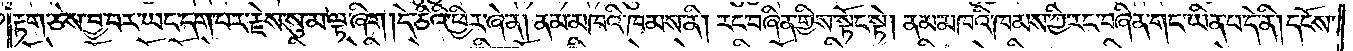རྟག་ཅེས་བྱ་བར་ཡང་དག་པར་རྗེས་སུ་མ་ལྟ་ཞིག །དེ་ཅིའི་ཕྱིར་ཞེ་ན། ནམ་མཁའི་ཁམས་ནི། རང་བཞིན་གྱིས་སྟོང་སྟེ། ནམ་མཁའི་ཁམས་ཀྱི་རང་བཞིན་གང་ཡིན་པ་དེ་ནི། དངོས་
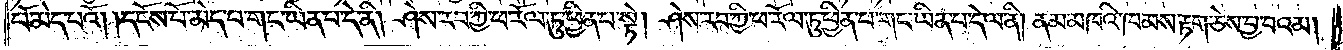པོ་མེད་པའོ། །དངོས་པོ་མེད་པ་གང་ཡིན་པ་དེ་ནི། ཤེས་རབ་ཀྱི་ཕ་རོལ་ཏུ་ཕྱིན་པ་སྟེ། ཤེས་རབ་ཀྱི་ཕ་རོལ་ཏུ་ཕྱིན་པ་གང་ཡིན་པ་དེ་ལ་ནི། ནམ་མཁའི་ཁམས་རྟག་ཅེས་བྱ་བའམ།
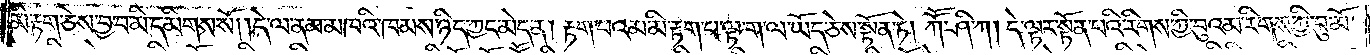མི་རྟག་ཅེས་བྱ་བ་མི་དམིགས་སོ། །དེ་ལ་ནམ་མཁའི་ཁམས་ཉིད་ཀྱང་མེད་ན། རྟག་པའམ་མི་རྟག་པ་ལྟ་ག་ལ་ཡོད་ཅེས་སྟོན་ཏེ། ཀཽ་ཤི་ཀ། དེ་ལྟར་སྟོན་པའི་རིགས་ཀྱི་བུའམ་རིགས་ཀྱི་བུ་མོ་
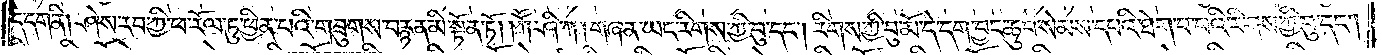དེ་དག་ནི། ཤེས་རབ་ཀྱི་ཕ་རོལ་ཏུ་ཕྱིན་པའི་གཟུགས་བརྙན་མི་སྟོན་ཏོ། །ཀཽ་ཤི་ཀ། གཞན་ཡང་རིགས་ཀྱི་བུ་དང༌། རིགས་ཀྱི་བུ་མོ་དེ་དག་བྱང་ཆུབ་སེམས་དཔའི་ཐེག་པ་པའི་རིགས་ཀྱི་བུ་དང༌།
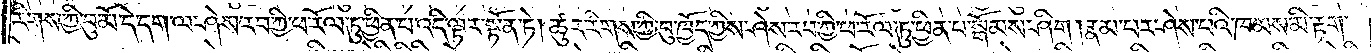རིགས་ཀྱི་བུ་མོ་དེ་དག་ལ་ཤེས་རབ་ཀྱི་ཕ་རོལ་ཏུ་ཕྱིན་པའི་ད་ལྟར་སྟོན་ཏེ། ཚུར་རིགས་ཀྱི་བུ་ཁྱོད་ཀྱིས་ཤེས་རབ་ཀྱི་ཕ་རོལ་ཏུ་ཕྱིན་པ་སྒོམས་ཤིག །རྣམ་པར་ཤེས་པའི་ཁམས་མི་རྟག་
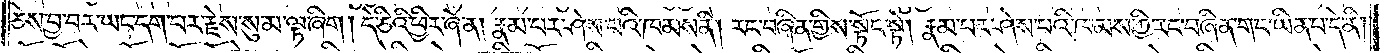ཅེས་བྱ་བར་ཡང་དག་པར་རྗེས་སུ་མ་ལྟ་ཞིག །དེ་ཅིའི་ཕྱིར་ཞེ་ན། རྣམ་པར་ཤེས་པའི་ཁམས་ནི། རང་བཞིན་གྱིས་སྟོང་སྟེ། རྣམ་པར་ཤེས་པའི་ཁམས་ཀྱི་རང་བཞིན་གང་ཡིན་པ་དེ་ནི།
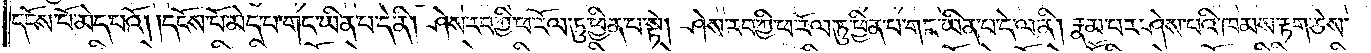དངོས་པོ་མེད་པའོ། དངོས་པོ་མེད་པ་གང་ཡིན་པ་དེ་ནི། ཤེས་རབ་ཀྱི་ཕ་རོལ་ཏུ་ཕྱིན་པ་སྟེ། ཤེས་རབ་ཀྱི་ཕ་རོལ་ཏུ་ཕྱིན་པ་གང་ཡིན་པ་དེ་ལ་ནི། རྣམ་པར་ཤེས་པའི་ཁམས་རྟག་ཅེས་
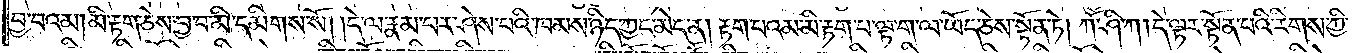བྱ་བའམ། མི་རྟག་ཅེས་བྱ་བ་མི་དམིགས་སོ། །དེ་ལ་རྣམ་པར་ཤེས་པའི་ཁམས་ཉིད་ཀྱང་མེད་ན། རྟག་པའམ་མི་རྟག་པ་ལྟ་ག་ལ་ཡོད་ཅེས་སྟོན་ཏེ། ཀཽ་ཤི་ཀ། དེ་ལྟར་སྟོན་པའི་རིགས་ཀྱི་
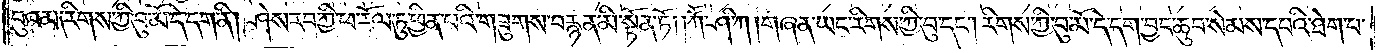བུའམ་རིགས་ཀྱི་བུ་མོ་དེ་དག་ནི། ཤེས་རབ་ཀྱི་ཕ་རོལ་ཏུ་ཕྱིན་པའི་གཟུགས་བརྙན་མི་སྟོན་ཏོ། །ཀཽ་ཤི་ཀ། གཞན་ཡང་རིགས་ཀྱི་བུ་དང༌། རིགས་ཀྱི་བུ་མོ་དེ་དག་བྱང་ཆུབ་སེམས་དཔའི་ཐེག་པ་
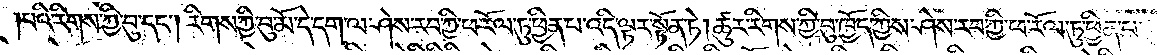པའི་རིགས་ཀྱི་བུ་དང༌། རིགས་ཀྱི་བུ་མོ་དེ་དག་ལ་ཤེས་རབ་ཀྱི་ཕ་རོལ་ཏུ་ཕྱིན་པ་འདི་ལྟར་སྟོན་ཏེ། ཚུར་རིགས་ཀྱི་བུ་ཁྱོད་ཀྱིས་ཤེས་རབ་ཀྱི་ཕ་རོལ་ཏུ་ཕྱིན་པ་
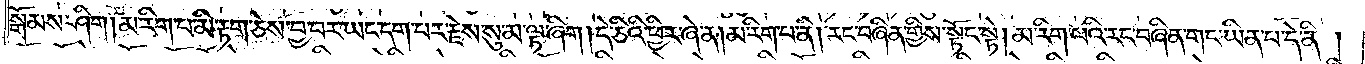སྒོམས་ཤིག །མ་རིག་པ་མི་རྟག་ཅེས་བྱ་བར་ཡང་དག་པར་རྗེས་སུ་མ་ལྟ་ཞིག །དེ་ཅིའི་ཕྱིར་ཞེ་ན། མ་རིག་པ་ནི། རང་བཞིན་གྱིས་སྟོང་སྟེ། མ་རིག་པའི་རང་བཞིན་གང་ཡིན་པ་དེ་ནི་།
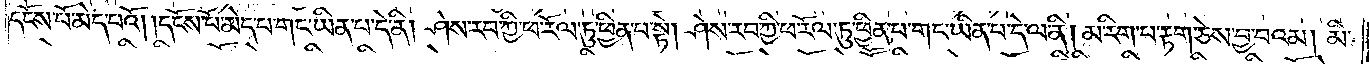དངོས་པོ་མེད་པའོ། །དངོས་པོ་མེད་པ་གང་ཡིན་པ་དེ་ནི། ཤེས་རབ་ཀྱི་ཕ་རོལ་ཏུ་ཕྱིན་པ་སྟེ། ཤེས་རབ་ཀྱི་ཕ་རོལ་ཏུ་ཕྱིན་པ་གང་ཡིན་པ་དེ་པ་ནི། མ་རིག་པ་རྟག་ཅེས་བྱ་བའམ། མི་
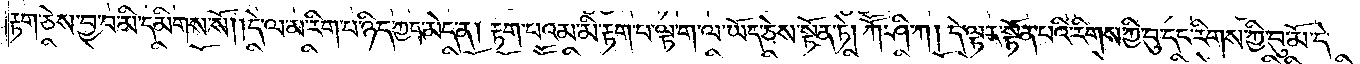རྟག་ཅེས་བྱ་བ་མི་དམིགས་སོ། །དེ་ལ་མ་རིག་པ་ཉིད་ཀྱང་མེད་ན། རྟག་པའམ་མི་རྟག་པ་ལྟ་ག་ལ་ཡོད་ཅེས་སྟོན་ཏེ། ཀཽ་ཤི་ཀ། དེ་ལྟར་སྟོན་པའི་རིགས་ཀྱི་བུ་དང་རིགས་ཀྱི་བུ་མོ་དེ་
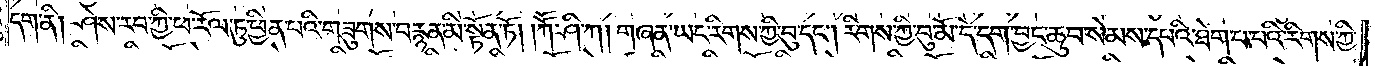དག་ནི། ཤེས་རབ་ཀྱི་ཕ་རོལ་ཏུ་ཕྱིན་པའི་གཟུགས་བརྙན་མི་སྟོན་ཏོ། །ཀཽ་ཤི་ཀ། གཞན་ཡང་རིགས་ཀྱི་བུ་དང༌། རིགས་ཀྱི་བུ་མོ་དེ་དག་བྱང་ཆུབ་སེམས་དཔའི་ཐེག་བ་པའི་རིགས་ཀྱི་
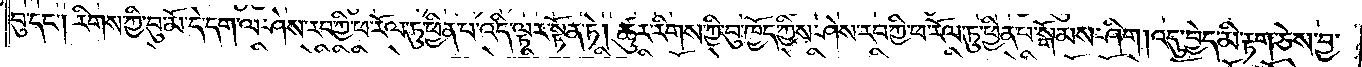བུ་དང༌། རིགས་ཀྱི་བུ་མོ་དེ་དག་ལ་ཤེས་རབ་ཀྱི་ཕ་རོལ་ཏུ་ཕྱིན་པ་འདི་ལྟར་སྟོན་ཏེ། ཚུར་རིགས་ཀྱི་བུ་ཁྱོད་ཀྱིས་ཤེས་རབ་ཀྱི་ཕ་རོལ་ཏུ་ཕྱིན་པ་སྒོམས་ཤིག །འདུ་བྱེད་མི་རྟག་ཅེས་བྱ་
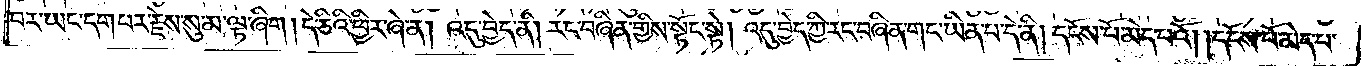བར་ཡང་དག་པར་རྗེས་སུ་མ་ལྟ་ཞིག །དེ་ཅིའི་ཕྱིར་ཞེ་ན། འདུ་བྱེད་ནི། རང་བཞིན་གྱིས་སྟོང་སྟེ། འདུ་བྱེད་ཀྱི་རང་བཞིན་གང་ཡིན་པ་དེ་ནི། དངོས་པོ་མེད་པའོ། །དངོས་པོ་མེད་པ་
